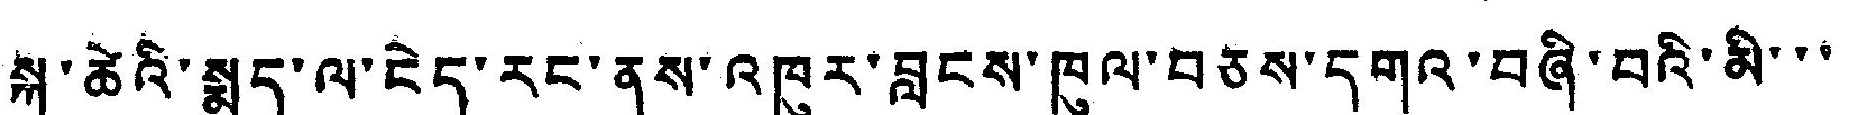སྐུ་ཚེའི་སྨད་ལ་ངེད་རང་ནས་འཁུར་བླངས་ཁུལ་བཅས་དགའ་བཞི་བའི་མི་་་
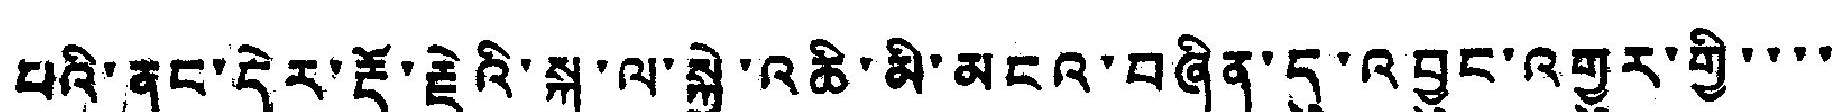པའི་ནང་དེར་རྡོ་རྗེའི་སྐུ་ལ་སྐྱེ་འཆི་མི་མངའ་བཞིན་དུ་འབྱུང་འགྱུར་གྱི་་་་
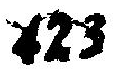423
